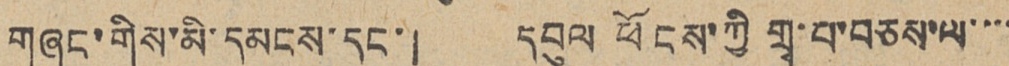གཞུང་གིས་མི་དམངས་དང་། དབུལ ཕོངས་ཀྱི གྲྭ་བ་བཅས་ལ་་་་
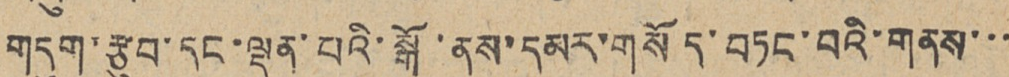གདུག་རྩུབ་དང་ལྡན་པའི་སྒོ་ནས་དམར་གསོད་བཏང་བའི་གནས་་་
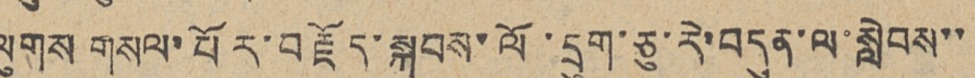ལུགས་གསལ་པོར་བརྗོད་སྐབས་ལོ་དྲུག་ཅུ་རེ་བདུན་ལ་སླེབས་་
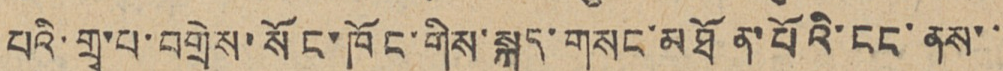པའི་གྲྭ་བ་བགྲེས་སོང་ཁོང་གིས་སྐད་གསང་མཐོན་པོའི་ངང་ནས་་་
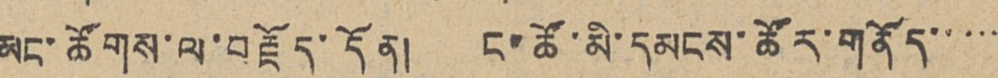མང་ཚོགས་ལ་བརྗོད་དོན། ང་ཚོ་མི་དམངས་ཚོར་གནོད་་་་་
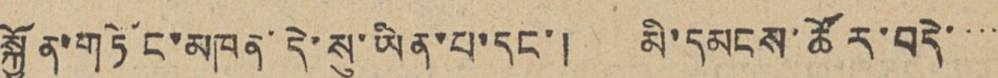སྐྱོན་གཏོང་མཁན་དེ་སུ་ཡིན་པ་དང་། མི་དམངས་ཚོར་བདེ་་་་
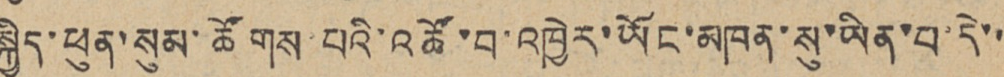སྐྱིད་ཕུན་སུམ་ཚོགས་པའི་འཚོ་བ་འཁྱེར་ཡོང་མཁན་སུ་ཡིན་པ་དེ་་
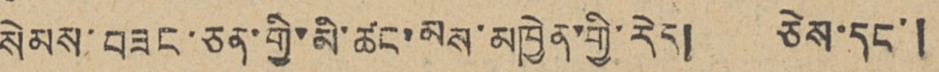སེམས་བཟང་ཅན་གྱི་མི་ཚང་མས་མཁྱེན་གྱི་རེད། ཅེས་དང་།
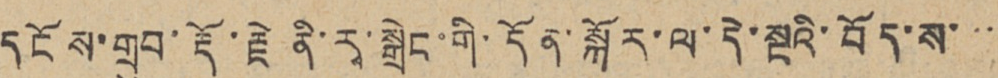དངོས་གྲུབ་རྡོ་རྗེ ནི་ར་སྒྲེང་གི་དོན་སྐོར་ལ་དེ་སྔའི་བོད་ས་་་་
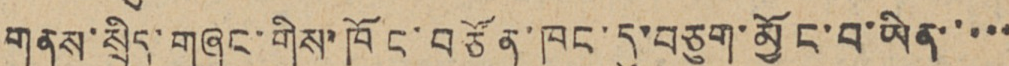གནས་སྲིད་གཞུག་གིས་ཁོང་བཙོན་ཁང་དུ་བཅུག་མྱོང་བ་ཡིན་་་་་
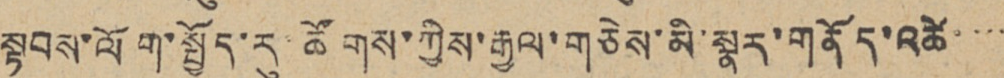སྟབས་ལོག་སྤྱོད་རུ་ཚོགས་ཀྱིས་རྒྱལ་གཅེས་མི་སྣར་གནོད་འཚེ་་་་
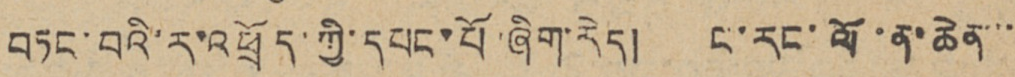བཏང་བའི་ར་འཕྲོད་ཀྱི་དཔང་པོ་ཞིག་རེད། ང་རང་ལོ་ན་ཆེན་་་
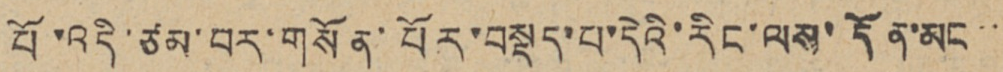པོ་འདི་ཙམ་བར་གསོན་པོར་བསྡད་པ་དེའི་རིང་ལས་དོན་མང་་་
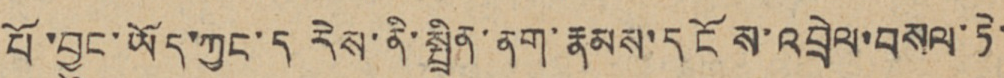པོ་བྱུང་ཡོད་ཀྱང་ད རེས་ནི་སྤྲིན་ནག་རྣམས་དངོས་འབྲེལ་བསལ་ཏེ་
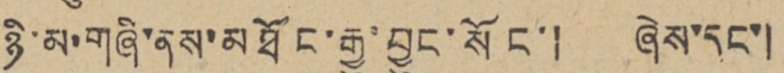ཉི་མ་གཞི་ནས་མཐོང་རྒྱུ་བྱུང་སོང་། ཞེས་དང་།
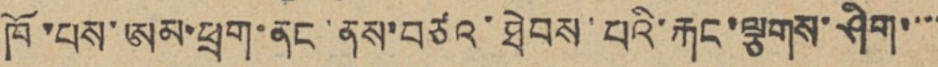ཁོ་པས་ཨམ་ཕྲག་ནང་ནས་བཙའ་ཐེབས་པའི་རྐང་ལྕགས་ཤིག་་་་
